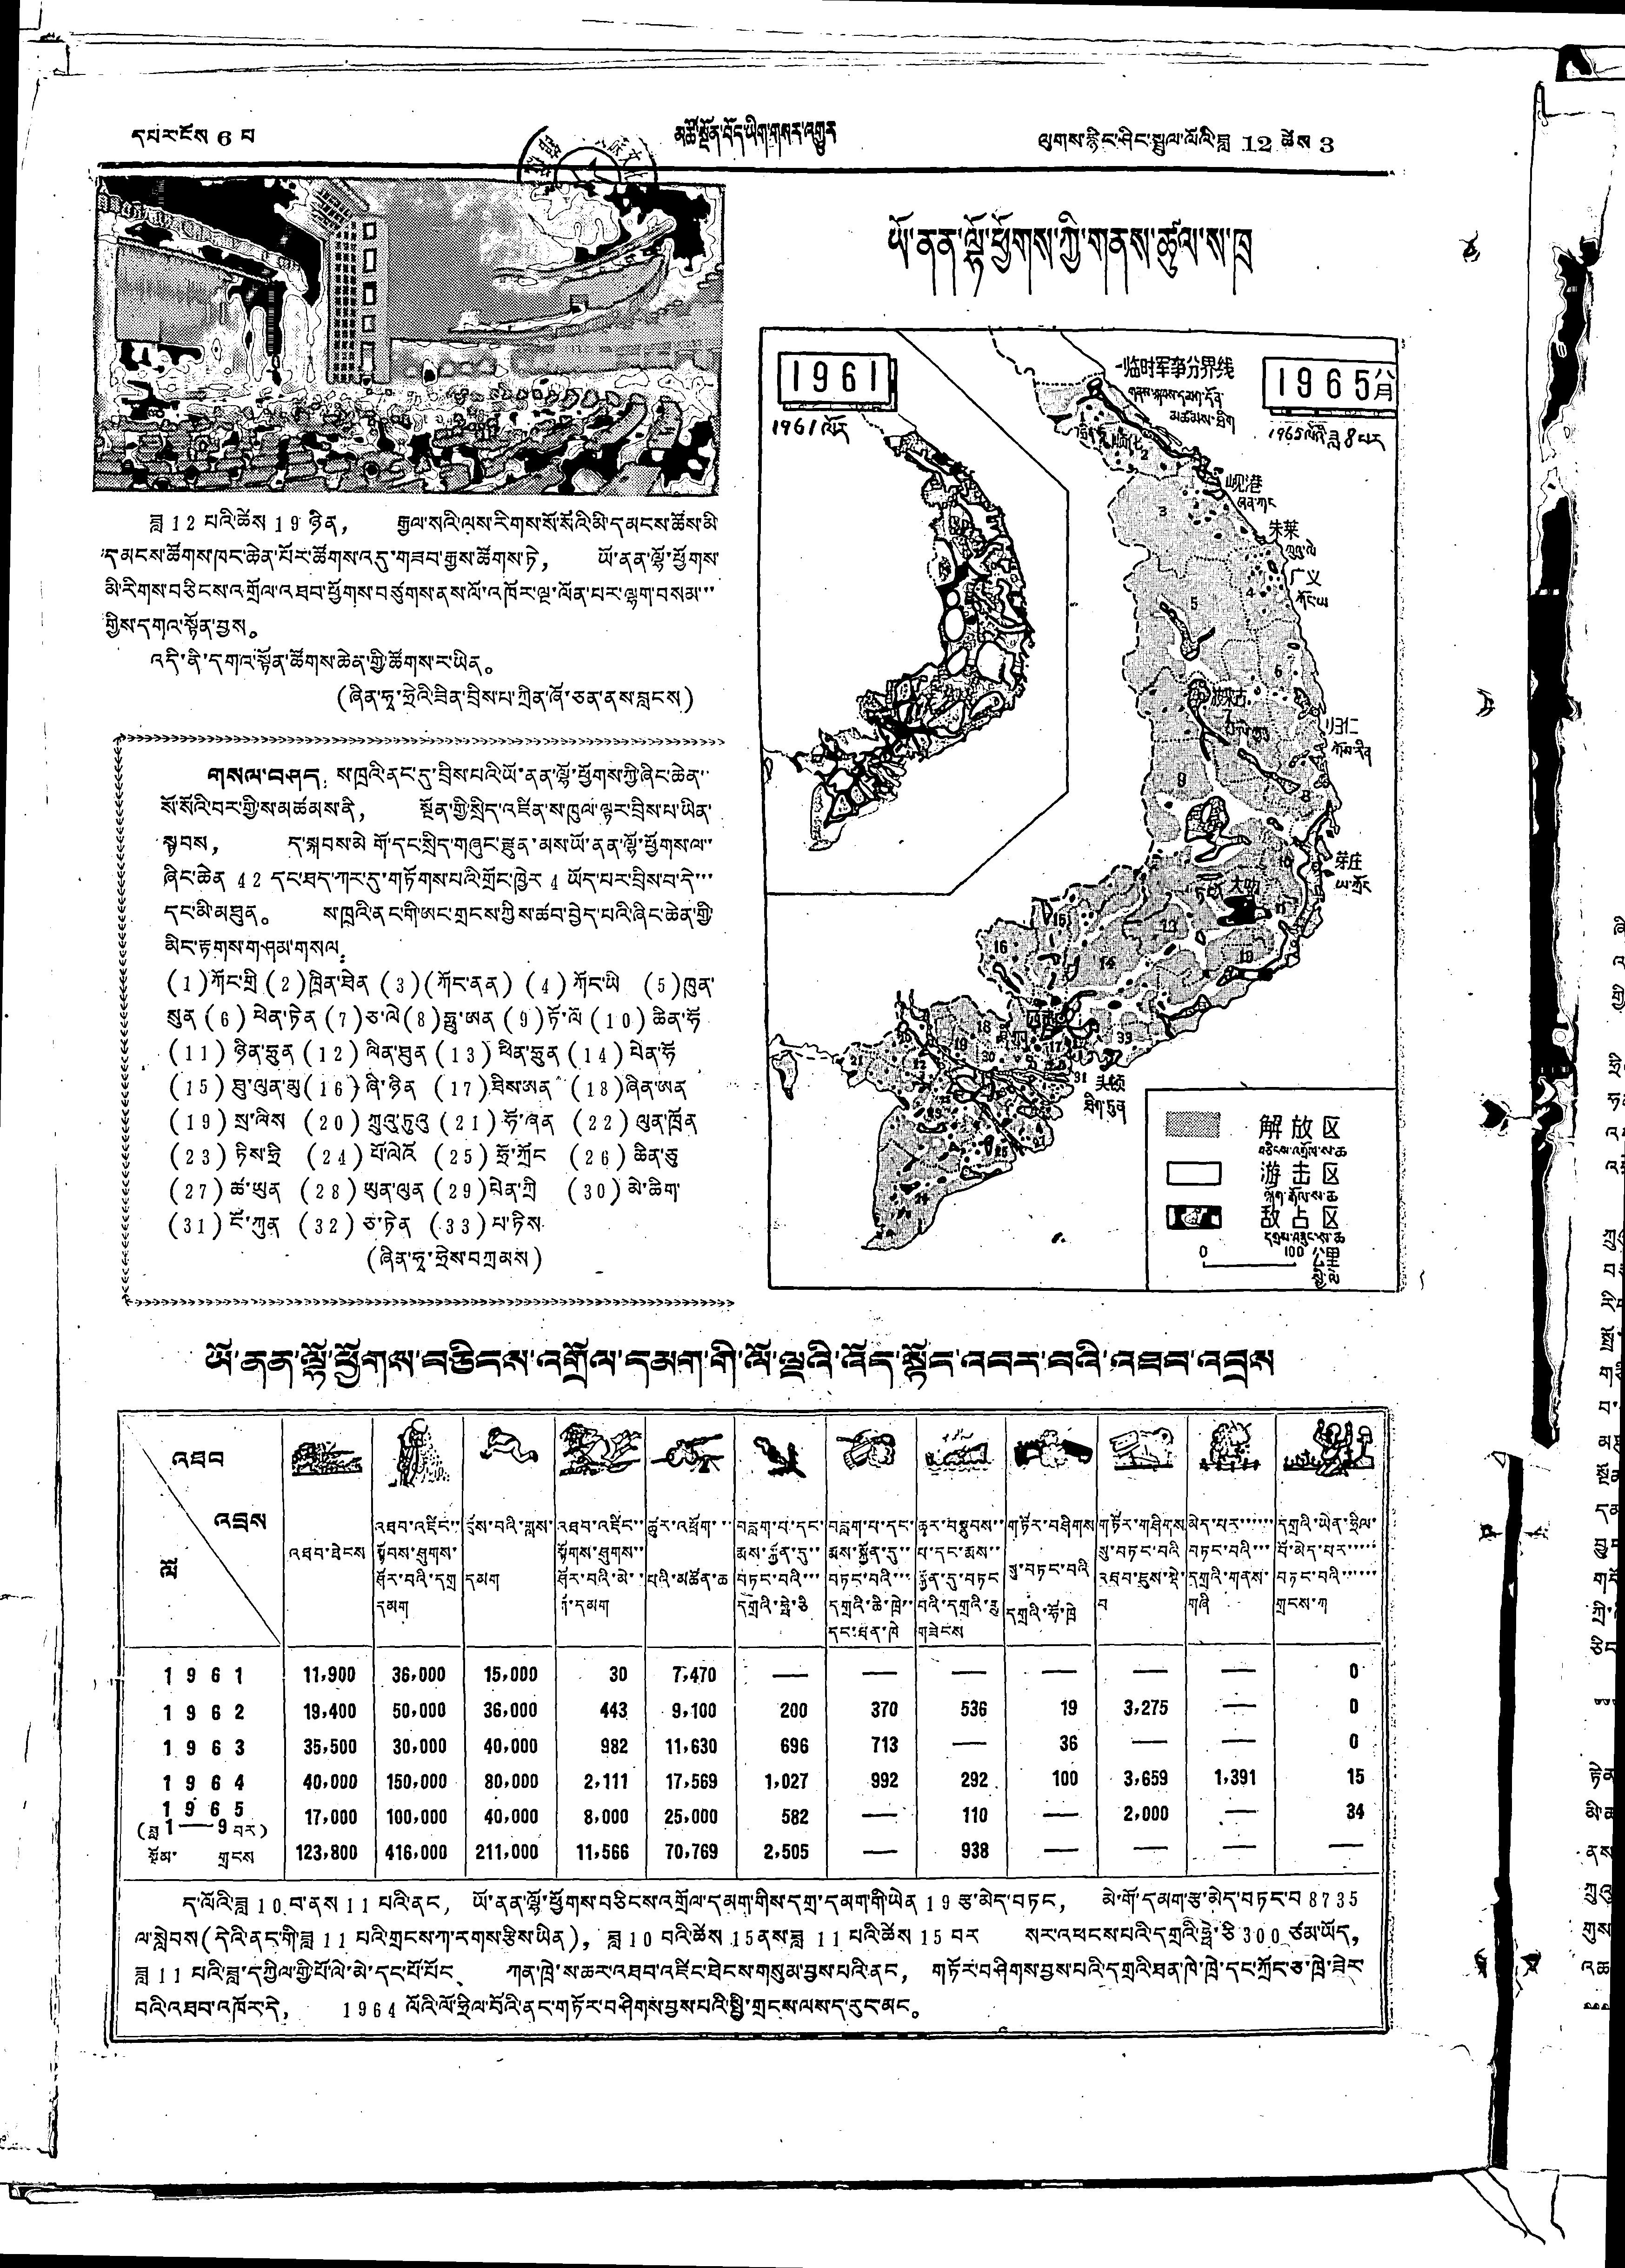དཔར་ངོས 6 པ མཆོ་སྔོན་བོད་ཡིག་གསར་འགྱུར ལུགས་རྙིང་ཤིང་སྦྲུལ་ལོའི་ཟླ 12 ཚེས 3
ཟླ 12 པའི་ཚེས 19 ཉིན， རྒྱལ་སའི་ལས་རིགས་སོ་སོའི་མི་དམངས་ཚོས་མི་
དམངས་ཚོགས་ཁང་ཆེན་པོར་ཚོགས་འདུ་གཟབ་རྒྱས་ཚོགས་ཏེ， ཡོ་ནན་ལྷོ་ཕྱོགས་
མི་རིགས་བཅིངས་འགྲོལ་འཐབ་ཕྱོགས་བཙུགས་ནས་ལོ་འཁོར་ལྔ་ལོན་པར་ལྷག་བསམ་་་
གྱིས་དགའ་སྟོན་བྱས。
འདི་ནི་དགའ་སྟོན་ཚོགས་ཆེན་གྱི་ཚོགས་ར་ཡིན。
(ཞིན་ཧྭ་ཧྲེའི་ཟིན་བྲིས་པ་ཀྲིན་ཞོ་ཅན་ནས་བླངས)
གསལ་བཤད： ས་ཁྲའི་ནང་དུ་བྲིས་པའི་ཡོ་ནན་ལྷོ་ཕྱོགས་ཀྱི་ཞིང་ཆེན་་
སོ་སོའི་བར་གྱི་ས་མཚམས་ནི， སྔོན་གྱི་སྲིད་འཛིན་ས་ཁུལ་ལྟར་བྲིས་པ་ཡིན་
སྟབས， ད་སྐབས་མེ གོ་དང་སྲིད་གཞུང་རྫུན་མས་ཡོ་ནན་ལྷོ་ཕྱོགས་ལ་་
ཞིང་ཆེན 42 དང་ཐད་ཀར་དུ་གཏོགས་པའི་གྲོང་ཁྱེར 4 ཡོད་པར་བྲིས་བ་དེ་་་
དང་མི་མཐུན。 ས་ཁྲའི་ནང་གི་ཨང་གྲངས་ཀྱིས་ཚབ་བྱེད་པའི་ཞིང་ཆེན་གྱི་
མིང་རྟགས་གཤམ་གསལ：
(1)ཀོང་གྲི (2)ཁྲིན་ཐེན (3) (ཀོར་ནན) (4) ཀོང་ཡི (5) ཁུན་
སུན (6) ཕེན་ཏེན (7)ཅ་ལེ (8) ཧྥུ་ཨན་ (9) ཏོ་ལོ (10) ཆིན་ཧོ
(11) ཉིན་ཧྥུན་ (12) ལིན་ཐུན (13) ཕིན་ཧྲུན (14) པེན་ཧོ
(15) བུ་ལུན་མུ (16) ཞི་ཉིན (17)ཟིས་ཨན་ (18)ཞིན་ཨན
(19) སྲ་ལིས (20) ཀྲུའུ་ཏུའུ ( 21) ཧོ་ཞན (22) ལུན་ཁྲོན
(23) ཏིས་ཧྲི (24) པོ་ལེའོ (25) ཧྲོ་ཀྲོང (26) ཆིན་ཅུ
(27) ཚ་ཡུན (28) ཡུན་ལུན (29) པེན་ཀྲི (30) མེ་ཆིག་
(31) ངོ་ཀུན (32) ཅ་ཏེན (33) པ་ཏིས
(ཞིན་ཧྭ་ཧྲེས་བཀྲམས)
ཡོ་ནན་ལྷོ་ཕྱོགས་ཀྱི་གནས་ཚུལ་ས་ཁྲ
1961
1961ལོར
1965八月
1965ལོའི་ཟླ8པར
-临时军事分界线
གནས་སྐབས་དམག་དོན་
མཚམས་ཐིག
ཧྲིན་ཧྭ 顺化
岘港
ཞན་ཀང
朱莱
ཀྲུའུ་ལེ
广义
ཀོང་ཡ
波来古
པ་ལེ་ཀུའུ
归仁
ཀོས་རིན
芽庄
ཡ་ཀྲོང
ཏ་ལོ་ 大叻
西贡
ཟི་ཀུན
头顿
ཐིག་ཏུན
解放区
བཅིངས་འགྲོལ་ས་ཆ
游击区
ལྐོག་རྒོལ་ས་ཆ
敌占区
དགྲས་བཟུང་ས་ཆ
公里
སྤྱི་ལེ་
ཡོ་ནན་ལྷོ་ཕྱོགས་བཅིངས་འགྲོལ་དམག་གི་ལོ་ལྔའི་འོད་སྟོང་འབར་བའི་འཐབ་འབྲས
འཐབ་འབྲས
ལོ
འཐབ་ཐེངས
འཐབ་འཛིང་་
སྟོབས་ཤུགས་
ཤོར་བའི་དགྲ
དམག
དྲོས་པའི་གླས་
དམག
འཐབ་འཛིང་་
སྟོགས་ཤུགས་་
ཤོར་བའི་མེ་་
ཀོ་དམག
ཚུར་འཕྲོག་་་་
པའི་མཚོན་ཆ
བརླག་པ་དང་
རྨས་སྐྱོན་དུ་་
བཏང་བའི་་་
དགྲའི་ཧྥེ་ཅི་
བརླག་པ་དང་
རྨས་སྐྱོན་དུ་་
བཏང་བའི་་་
དགྲའི་ཆི་ཁྲེ་་
དང་ཐན་ཁེ་
ཆུར་བསྣུབས་་
པ་དང་རྨས་
སྐྱོན་དུ་བཏང
བའི་དགྲའི་གྲུ
གཟེངས
གཏོར་བཤིགས
སུ་བཏང་བའི
དགྲའི་ཧོ་ཁྲེ་
གཏོར་གཤིགས
སུ་བཏང་བའི
འཐབ་ཇུས་སྡེ
བ
མེད་པར་་་་་་
བཏང་བའི་་་
དགྲའི་གནས་
གཞི
དགྲའི་ཡེན་ཧྲིལ་
པོ་མེད་པར་་་་་
བཏང་བའི་་་་་་
གྲངས་ཀ
1 9 6 1
1 9 6 2
1 9 6 3
1 9 6 4
1 9 6 5
(ཟླ 1—9 བར)
སྡོམ་ གྲངས་
11,900
19,400
35,500
40,000
17,000
123,800
36,000
50,000
30,000
150,000
100,000
416,000
15,000
36,000
40,000
80,000
40,000
211,000
30
443
982
2,111
8,000
11,566
7,470
9,100
11,630
17,569
25,000
70,769
—
200
696
1,027
582
2,505
—
370
713
992
—
—
—
536
—
292
110
938
—
19
36
100
—
—
—
3,275
—
3,659
2,000
—
—
—
—
1,391
—
—
0
0
0
15
34
—
ད་ལོའི་ཟླ 10 བ་ནས11པའི་ནང，ཡོ་ནན་ལྷོ་ཕྱོགས་བཅིངས་འགྲོལ་དམག་གིས་དགྲ་དམག་གི་ཡེན19 རྩ་མེད་བཏང， མེ་གོ་དམག་རྩ་མེད་བཏང་བ 8735
ལ་སླེབས (དེའི་ནང་གི་ཟླ 11 པའི་གྲངས་ཀ་རགས་རྩིས་ཡིན)， ཟླ 10 བའི་ཚེས 15 ནས་ཟླ 11 པའི་ཚེས 15 བར སར་འཕངས་པའི་དགྲའི་ཧྥེ་ཅི 300 ཙམ་ཡོད，
ཟླ 11 པའི་ཟླ་དཀྱིལ་གྱི་པོ་ལེ་མེ་དང་པོ་པོང、 ཀན་ཁྲེ་ས་ཆར་འཐབ་འཛིང་ཐེངས་གསུམ་བྱས་པའི་ནང， གཏོར་བཤིགས་བྱས་པའི་དགྲའི་ཐན་ཁེ་ཁྲེ་དང་ཀྲོད་ཅ་ཁྲེ་ཟེར་
བའི་འཐབ་འཁོར་དེ， 1964 ལོའི་ལོ་ཧྲིལ་བོའི་ནང་གཏོར་བཤིགས་བྱས་པའི་སྤྱི་གྲངས་ལས་ད་རུང་མང。
